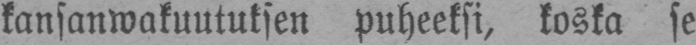kansanwakuutuksen puheeksi, koska se
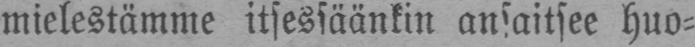mielestämme itsessäänkin ansaitsee huo-
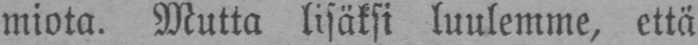miota. Mutta lisäksi luulemme, että
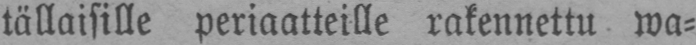tällaisille periaatteille rakennettu wa-
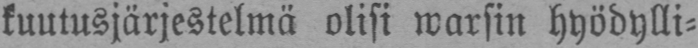kuutusjärjestelmä olisi warsin hyödylli-
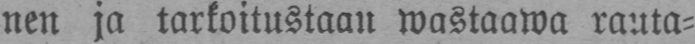nen ja tarkoitustaan wastaawa rauta-
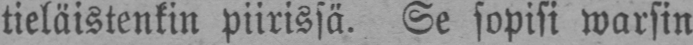tieläistenkin piirissä. Se sopisi warsin
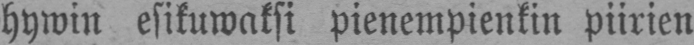hywin esikuwaksi pienempienkin piirien
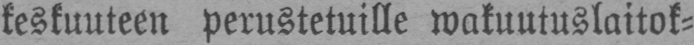keskuuteen perustetuille wakuutuslaitok-
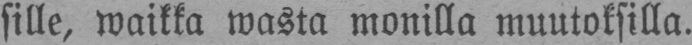sille, waikka wasta monilla muutoksilla.
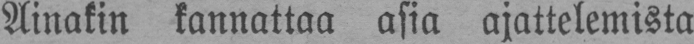Ainakin kannattaa asia ajattelemista
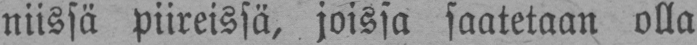niissä piireissä, joissa saatetaan olla
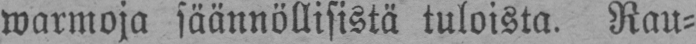warmoja säännöllisistä tuloista. Rau-
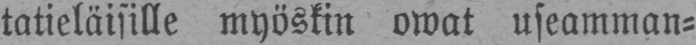tatieläisille myöskin owat useamman-
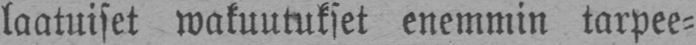laatuiset wakuutukset enemmin tarpee-
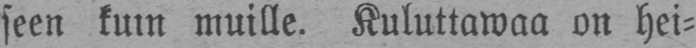seen kum muille. Kuluttawaa on hei-
